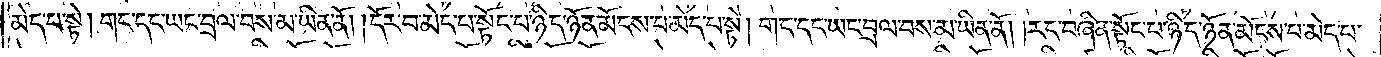མེད་པ་སྟེ། གང་དང་ཡང་བྲལ་བས་མ་ཡིན་ནོ། །དོར་བ་མེད་པ་སྟོང་པ་ཉིད་ཉོན་མོངས་པ་མེད་པ་སྟེ། གང་དང་ཡང་བྲལ་བས་མ་ཡིན་ནོ། །རང་བཞིན་སྟོང་པ་ཉིད་ཉོན་མོངས་པ་མེད་པ་
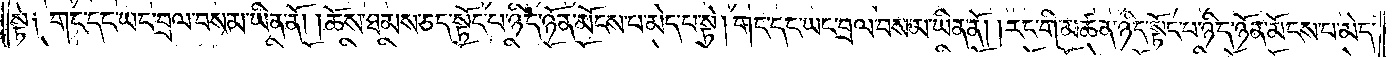སྟེ༑ གང་དང་ཡང་བྲལ་བས་མ་ཡིན་ནོ། །ཆོས་ཐམས་ཅད་སྟོང་པ་ཉིད་ཉོན་མོངས་པ་མེད་པ་སྟེ། གང་དང་ཡང་བྲལ་བས་མ་ཡིན་ནོ། །རང་གི་མཚན་ཉིད་སྟོང་པ་ཉིད་ཉོན་མོངས་པ་མེད་
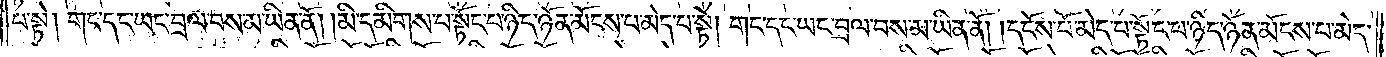པ་སྟེ། གང་དང་ཡང་བྲལ་བས་མ་ཡིན་ནོ། །མི་དམིགས་པ་སྟོང་པ་ཉིད་ཉོན་མོངས་པ་མེད་པ་སྟེ། གང་དང་ཡང་བྲལ་བས་མ་ཡིན་ནོ། །དངོས་པོ་མེད་པ་སྟོང་པ་ཉིད་ཉོན་མོངས་པ་མེད་
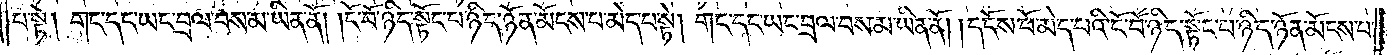པ་སྟེ། གང་དང་ཡང་བྲལ་བས་མ་ཡིན་ནོ། །ངོ་བོ་ཉིད་སྟོང་པ་ཉིད་ཉོན་མོངས་པ་མེད་པ་སྟེ། གང་དང་ཡང་བྲལ་བས་མ་ཡིན་ནོ། །དངོས་པོ་མེད་པའི་ངོ་བོ་ཉིད་སྟོང་པ་ཉིད་ཉོན་མོངས་པ་
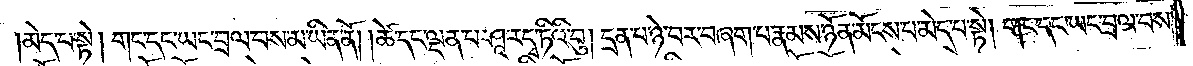མེད་པ་སྟེ། གང་དང་ཡང་བྲལ་བས་མ་ཡིན་ནོ། །ཚེ་དང་ལྡན་པ་ཤཱ་ར་དྭ་ཏིའི་བུ། དྲན་པ་ཉེ་བར་བཞག་པ་རྣམས་ཉོན་མོངས་པ་མེད་པ་སྟེ། གང་དང་ཡང་བྲལ་བས་
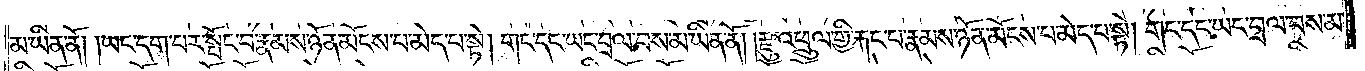མ་ཡིན་ནོ། །ཡང་དག་པར་སྤོང་བ་རྣམས་ཉོན་མོངས་པ་མེད་པ་སྟེ། གང་དང་ཡང་བྲལ་བས་མ་ཡིན་ནོ། །རྫུ་འཕྲུལ་གྱི་རྐང་པ་རྣམས་ཉོན་མོངས་པ་མེད་པ་སྟེ། གང་དང་ཡང་བྲལ་བས་མ་
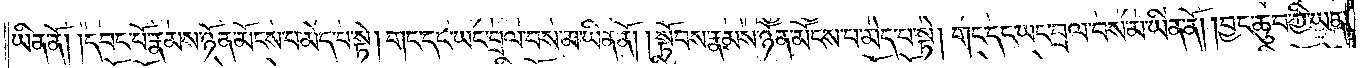ཡིན་ནོ། །དབང་པོ་རྣམས་ཉོན་མོངས་པ་མེད་པ་སྟེ། གང་དང་ཡང་བྲལ་བས་མ་ཡིན་ནོ། །སྟོབས་རྣམས་ཉོན་མོངས་པ་མེད་པ་སྟེ། གང་དང་ཡང་བྲལ་བས་མ་ཡིན་ནོ། །བྱང་ཆུབ་ཀྱི་ཡན་
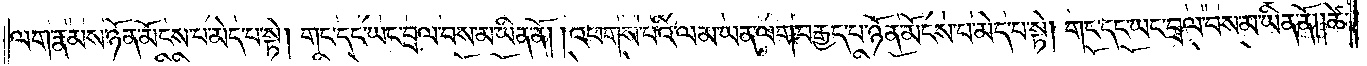ལག་རྣམས་ཉོན་མོངས་པ་མེད་པ་སྟེ། གང་དང་ཡང་བྲལ་བས་མ་ཡིན་ནོ། །འཕགས་པའི་ལམ་ཡན་ལག་བརྒྱད་པ་ཉོན་མོངས་པ་མེད་པ་སྟེ། གང་དང་ཡང་བྲལ་བས་མ་ཡིན་ནོ། །ཚེ་
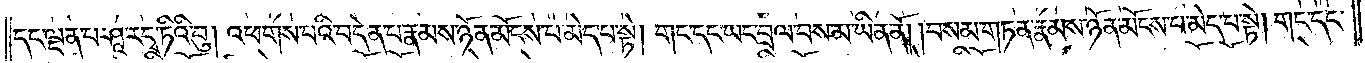དང་ལྡན་པ་ཤཱ་ར་དྭ་ཏིའི་བུ། །འཕགས་པའི་བདེན་པ་རྣམས་ཉོན་མོངས་པ་མེད་པ་སྟེ། གང་དང་ཡང་བྲལ་བས་མ་ཡིན་ནོ། །བསམ་གཏན་རྣམས་ཉོན་མོངས་པ་མེད་པ་སྟེ། གང་དང་
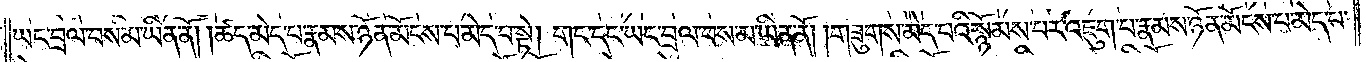ཡང་བྲལ་བས་མ་ཡིན་ནོ། །ཚད་མེད་པ་རྣམས་ཉོན་མོངས་པ་མེད་པ་སྟེ། གང་དང་ཡང་བྲལ་བས་མ་ཡིན་ནོ། །གཟུགས་མེད་པའི་སྙོམས་པར་འཇུག་པ་རྣམས་ཉོན་མོངས་པ་མེད་པ་
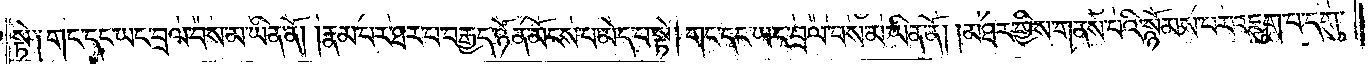སྟེ། གང་དང་ཡང་བྲལ་བས་མ་ཡིན་ནོ། །རྣམ་པར་ཐར་པ་བརྒྱད་ཉོན་མོངས་པ་མེད་པ་སྟེ། གང་དང་ཡང་བྲལ་བས་མ་ཡིན་ནོ། །མཐར་གྱིས་གནས་པའི་སྙོམས་པར་འཇུག་པ་དགུ་
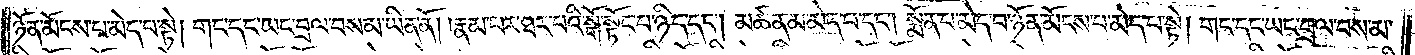ཉོན་མོངས་པ་མེད་པ་སྟེ། གང་དང་ཡང་བྲལ་བས་མ་ཡིན་ནོ། །རྣམ་པར་ཐར་པའི་སྒོ་སྟོང་པ་ཉིད་དང༌། མཚན་མ་མེད་པ་དང༌། སྨོན་པ་མེད་པ་ཉོན་མོངས་པ་མེད་པ་སྟེ། གང་དང་ཡང་བྲལ་བས་མ་
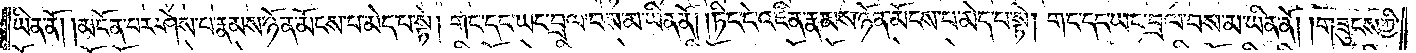ཡིན་ནོ། །མངོན་པར་ཤེས་པ་རྣམས་ཉོན་མོངས་པ་མེད་པ་སྟེ། གང་དང་ཡང་བྲལ་བས་མ་ཡིན་ནོ། །ཏིང་ངེ་འཛིན་རྣམས་ཉོན་མོངས་པ་མེད་པ་སྟེ། གང་དང་ཡང་བྲལ་བས་མ་ཡིན་ནོ། །གཟུངས་ཀྱི་
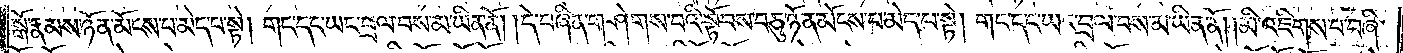སྒོ་རྣམས་ཉོན་མོངས་པ་མེད་པ་སྟེ། གང་དང་ཡང་བྲལ་བས་མ་ཡིན་ནོ། །དེ་བཞིན་གཤེགས་པའི་སྟོབས་བཅུ་ཉོན་མོངས་པ་མེད་པ་སྟེ། གང་དང་ཡང་བྲལ་བས་མ་ཡིན་ནོ། །མི་འཇིགས་པ་བཞི་
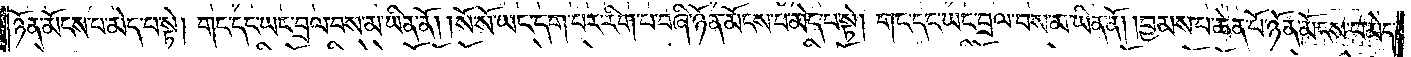ཉོན་མོངས་པ་མེད་པ་སྟེ། གང་དང་ཡང་བྲལ་བས་མ་ཡིན་ནོ། །སོ་སོ་ཡང་དག་པར་རིག་པ་བཞི་ཉོན་མོངས་པ་མེད་པ་སྟེ། གང་དང་ཡང་བྲལ་བས་མ་ཡིན་ནོ། །བྱམས་པ་ཆེན་པོ་ཉོན་མོངས་པ་མེད་
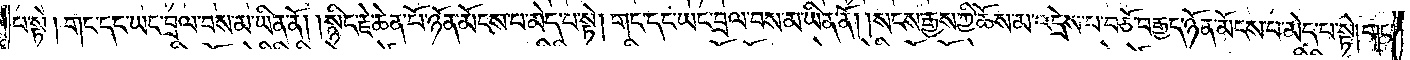པ་སྟེ། གང་དང་ཡང་བྲལ་བས་མ་ཡིན་ནོ། །སྙིང་རྗེ་ཆེན་པོ་ཉོན་མོངས་པ་མེད་པ་སྟེ། གང་དང་ཡང་བྲལ་བས་མ་ཡིན་ནོ། །སངས་རྒྱས་ཀྱི་ཆོས་མ་འདྲེས་པ་བཅོ་བརྒྱད་ཉོན་མོངས་པ་མེད་པ་སྟེ། གང་
